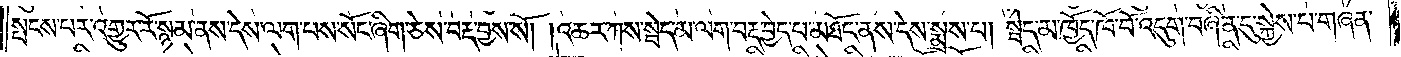སྤངས་པར་འགྱུར་རོ་སྙམ་ནས་དེས་ལག་པས་སོང་ཞིག་ཅེས་བརྡ་བྱས་སོ། །འཆར་ཀས་སྦེད་མ་ལག་བརྡ་བྱེད་པ་མཐོང་ནས་དེས་སྨྲས་པ། སྦེད་མ་ཁྱོད་ཁོ་བོ་འདུག་བཞིན་དུ་སྐྱེས་པ་གཞན་
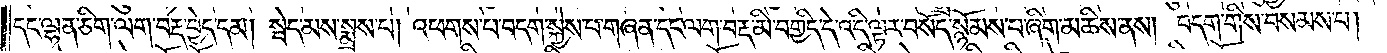དང་ལྷན་ཅིག་ལག་བརྡ་བྱེད་དམ། སྦེད་མས་སྨྲས་པ། འཕགས་པ་བདག་སྐྱེས་པ་གཞན་དང་ལག་བརྡ་མི་བགྱིད་དེ་འདི་ལྟར་བསོད་སྙོམས་པ་ཞིག་མཆིས་ནས། བདག་གིས་བསམས་པ།
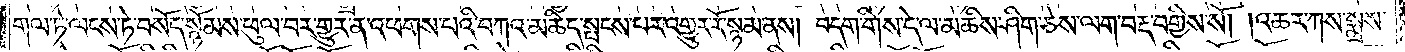གལ་ཏེ་ལངས་ཏེ་བསོད་སྙོམས་ཕུལ་བར་གྱུར་ན་འཕགས་པའི་བཀའ་མཆིད་སྤངས་པར་འགྱུར་རོ་སྙམ་ནས། བདག་གིས་དེ་ལ་མཆིས་ཤིག་ཅེས་ལག་བརྡ་བགྱིས་སོ། །འཆར་ཀས་སྨྲས་
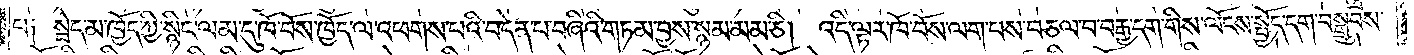པ། སྦེད་མ་ཁྱོད་ཀྱི་སྙིང་ལམ་དུ་ཁོ་བོས་ཁྱོད་ལ་འཕགས་པའི་བདེན་པ་བཞིའི་གཏམ་བྱས་སྙམ་མམ་ཅི། འདི་ལྟར་ཁོ་བོས་ལག་པས་བཅལ་བ་བརྒྱ་དག་གིས་ལོངས་སྤྱོད་དག་བསྒྲུབས་
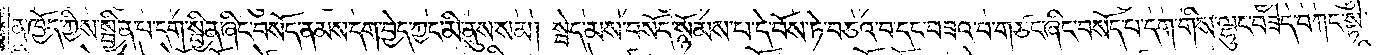ན་ཁྱོད་ཀྱིས་སྦྱིན་པ་དག་སྦྱིན་ཞིང་བསོད་ནམས་དག་བྱེད་ཀྱང་མི་ནུས་སམ། སྦེད་མས་བསོད་སྙོམས་པ་དེ་བོས་ཏེ་བཅའ་བ་དང་བཟའ་བ་གཙང་ཞིང་བསོད་པ་དག་གིས་ལྷུང་བཟེད་བཀང་སྟེ་
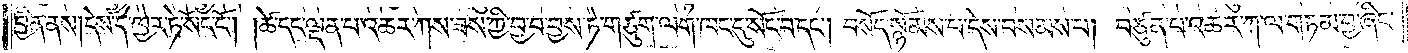བྱིན་ནས། དེས་དེ་ཁྱེར་ཏེ་སོང་ངོ༌། །ཚེ་དང་ལྡན་པ་འཆར་ཀས་ཟས་ཀྱི་བྱ་བ་བྱས་ཏེ་གཙུག་ལག་ཁང་དུ་སོང་བ་དང༌། བསོད་སྙོམས་པ་དེས་བསམ་པ། བཙུན་པ་འཆར་ཀ་ལ་གཏམ་བྱ་ཞིང་
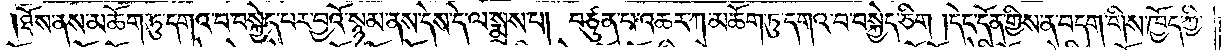ཐོས་ནས་མཆོག་ཏུ་དགའ་བ་བསྐྱེད་པར་བྱའོ་སྙམ་ནས་དེས་དེ་ལ་སྨྲས་པ། བཙུན་པ་འཆར་ཀ་མཆོག་ཏུ་དགའ་བ་བསྐྱེད་ཅིག །དེང་དོན་གྱིས་ན་བདག་གིས་ཁྱོད་ཀྱི་
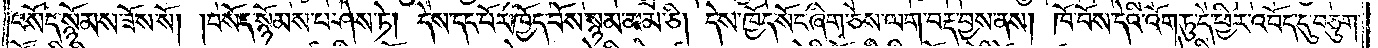བསོད་སྙོམས་ཟོས་སོ། །བསོད་སྙོམས་པ་ཤེས་ཏེ། དེས་དང་པོར་ཁྱོད་བོས་སྙམ་མམ་ཅི། དེས་ཁྱོད་སོང་ཞིག་ཅེས་ལག་བརྡ་བྱས་ནས། ཁོ་བོས་དེའི་འོག་ཏུ་དེ་ཕྱིར་འབོད་དུ་བཅུག་
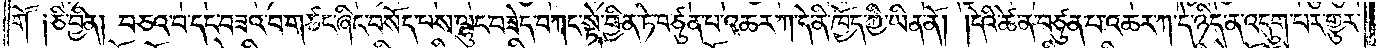གོ །ཅི་བྱིན། བཅའ་བ་དང་བཟའ་བ་གཙང་ཞིང་བསོད་པས་ལྷུང་བཟེད་བཀང་སྟེ་བྱིན་ཏེ་བཙུན་པ་འཆར་ཀ་དེ་ནི་ཁྱོད་ཀྱི་ཡིན་ནོ། །དེའི་ཚེ་ན་བཙུན་པ་འཆར་ཀ་དེ་ཉིད་ན་འདུག་པར་གྱུར་
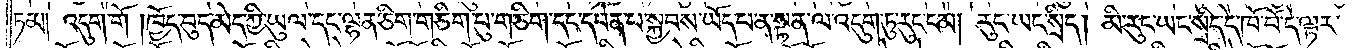ཏམ། འདུག་གོ། ཁྱོད་བུད་མེད་ཀྱི་ཡུལ་དང་ལྷན་ཅིག་གཅིག་པུ་གཅིག་དང་དབེན་པ་སྐྱབས་ཡོད་པ་ན་སྟན་ལ་འདུག་ཏུ་རུང་ངམ། རུང་ཡང་སྲིད། མི་རུང་ཡང་སྲིད་དེ་ཁོ་བོ་དེ་ལྟར་
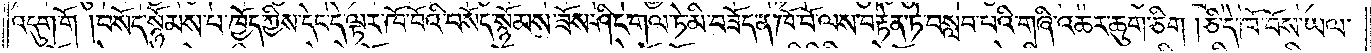འདུག་གོ། བསོད་སྙོམས་པ་ཁྱོད་ཀྱིས་དེང་དེ་ལྟར་ཁོ་བོའི་བསོད་སྙོམས་ཟོས་ཤིང་གལ་ཏེ་མི་བཟོད་ན་ཁོ་བོ་ལས་བརྟེན་ཏེ་བསླབ་པའི་གཞི་འཆར་ཆུག་ཅིག །ཅི་དེ་ཁོ་བོས་ཡལ་
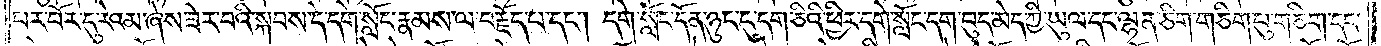པར་བོར་དུ་རེའམ་ཞེས་ཟེར་བའི་སྐབས་དེ་དགེ་སློང་རྣམས་ལ་བརྗོད་པ་དང༌། དགེ་སློང་དོན་ཉུང་དུ་དག་ཅིའི་ཕྱིར་དགེ་སློང་དག་བུད་མེད་ཀྱི་ཡུལ་དང་ལྷན་ཅིག་གཅིག་པུ་གཅིག་དང་
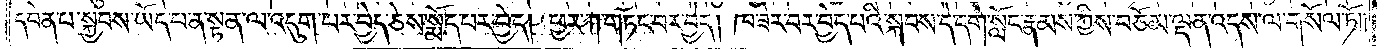དབེན་པ་སྐྱབས་ཡོད་པ་ན་སྟན་ལ་འདུག་པར་བྱེད་ཅེས་སྨོད་པར་བྱེད། ཕྱར་ཀ་གཏོང་བར་བྱེད། ཁ་ཟེར་བར་བྱེད་པའི་སྐབས་དེ་དགེ་སློང་རྣམས་ཀྱིས་བཅོམ་ལྡན་འདས་ལ་གསོལ་ཏོ༎
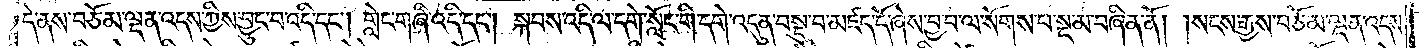དེ་ནས་བཅོམ་ལྡན་འདས་ཀྱིས་བྱུང་བ་འདི་དང༌། གླེང་གཞི་འདི་དང༌། སྐབས་འདི་ལ་དགེ་སློང་གི་དགེ་འདུན་བསྡུ་བ་མཛད་དོ་ཞེས་བྱ་བ་ལ་སོགས་པ་སྔ་མ་བཞིན་ནོ། །སངས་རྒྱས་བཅོམ་ལྡན་འདས་
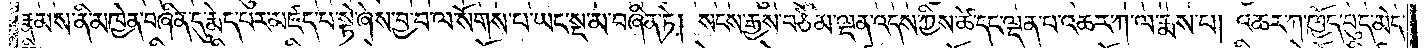རྣམས་ནི་མཁྱེན་བཞིན་དུ་རྨེད་པར་མཛད་པ་སྟེ་ཞེས་བྱ་བ་ལ་སོགས་པ་ཡང་སྔ་མ་བཞིན་ཏེ། སངས་རྒྱས་བཅོམ་ལྡན་འདས་ཀྱིས་ཚེ་དང་ལྡན་པ་འཆར་ཀ་ལ་རྨས་པ། འཆར་ཀ་ཁྱོད་བུད་མེད་
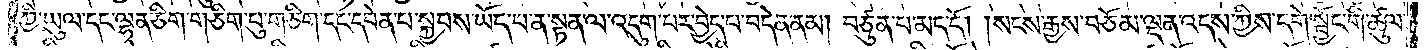ཀྱི་ཡུལ་དང་ལྷན་ཅིག་གཅིག་པུ་གཅིག་དང་དབེན་པ་སྐྱབས་ཡོད་པ་ན་སྟན་ལ་འདུག་པར་བྱེད་པ་བདེན་ནམ། བཙུན་པ་མད་དོ། །སངས་རྒྱས་བཅོམ་ལྡན་འདས་ཀྱིས་དགེ་སྦྱོང་གི་ཚུལ་
